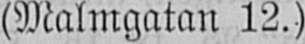(Malmgatan 12.)
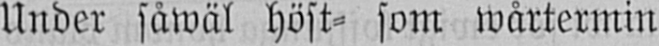Under såwäl höst- som wårtermin
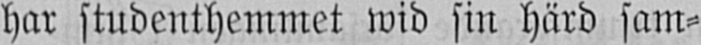har studenthemmet wid sin härd sam-
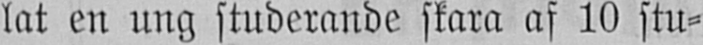lat en ung studerande skara af 10 stu-
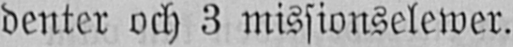denter och 3 missionselewer.
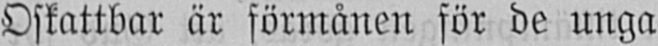Oskattbar är förmånen för de unga
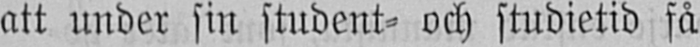att under sin student- och studietid få
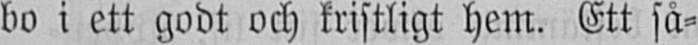bo i ett godt och kristligt hem. Ett så-
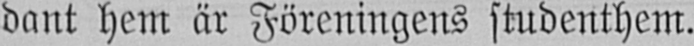dant hem är Föreningens studenthem.
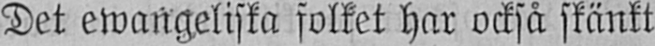Det ewangeliska folket har också skänkt
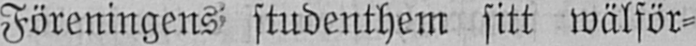Föreningens studenthem sitt wälför-
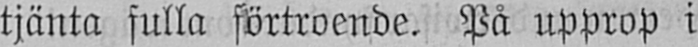tjänta fulla förtroende. På upprop i
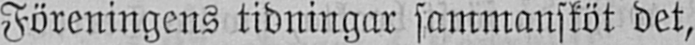Föreningens tidningar sammansköt det,
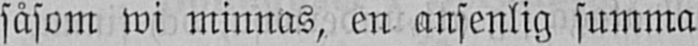såsom wi minnas, en ansenlig summa
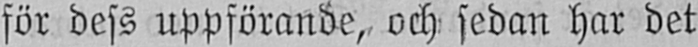för dess uppförande, och sedan har det
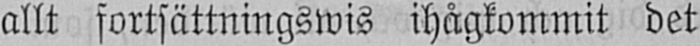allt fortsättningswis ihågkommit det
